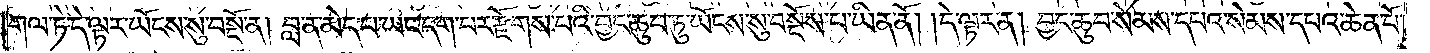གལ་ཏེ་དེ་ལྟར་ཡོངས་སུ་བསྔོ་ན། བླ་ན་མེད་པ་ཡང་དག་པར་རྫོགས་པའི་བྱང་ཆུབ་ཏུ་ཡོངས་སུ་བསྔོས་པ་ཡིན་ནོ། །དེ་ལྟར་ན། བྱང་ཆུབ་སེམས་དཔའ་སེམས་དཔའ་ཆེན་པོ་
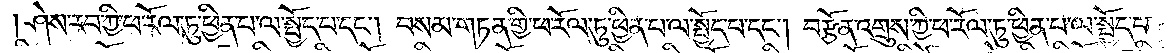ཤེས་རབ་ཀྱི་ཕ་རོལ་ཏུ་ཕྱིན་པ་ལ་སྤྱོད་པ་དང༌། བསམ་གཏན་གྱི་ཕ་རོལ་ཏུ་ཕྱིན་པ་ལ་སྤྱོད་པ་དང༌། བརྩོན་འགྲུས་ཀྱི་ཕ་རོལ་ཏུ་ཕྱིན་པ་ལ་སྤྱོད་པ་
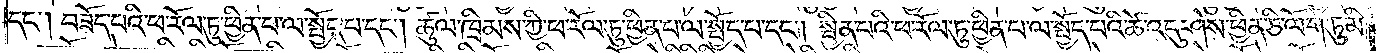དང༌། བཟོད་པའི་ཕ་རོལ་ཏུ་ཕྱིན་པ་ལ་སྤྱོད་པ་དང༌། ཚུལ་ཁྲིམས་ཀྱི་ཕ་རོལ་ཏུ་ཕྱིན་པ་ལ་སྤྱོད་པ་དང༌། སྦྱིན་པའི་ཕ་རོལ་ཏུ་ཕྱིན་པ་ལ་སྤྱོད་པའི་ཚེ་འདུ་ཤེས་ཕྱིན་ཅི་ལོག་ཏུ་མི་
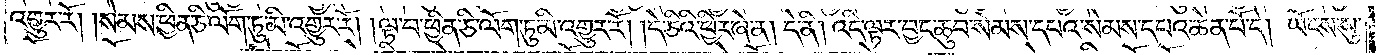འགྱུར་རོ། །སེམས་ཕྱིན་ཅི་ལོག་ཏུ་མི་འགྱུར་རོ། །ལྟ་བ་ཕྱིན་ཅི་ལོག་ཏུ་མི་འགྱུར་རོ། །དེ་ཅིའི་ཕྱིར་ཞེ་ན། དེ་ནི། འདི་ལྟར་བྱང་ཆུབ་སེམས་དཔའ་སེམས་དཔའ་ཆེན་པོ་དེ། ཡོངས་སུ་
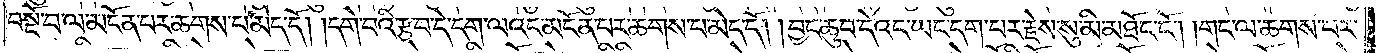བསྔོ་བ་ལ་མངོན་པར་ཆགས་པ་མེད་དོ། །དགེ་བའི་རྩ་བ་དེ་དག་ལའང་མངོན་པར་ཆགས་པ་མེད་དོ། །བྱང་ཆུབ་དེའང་ཡང་དག་པར་རྗེས་སུ་མི་མཐོང་ངོ༌། །གང་ལ་ཆགས་པར་
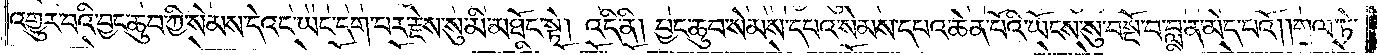འགྱུར་བའི་བྱང་ཆུབ་ཀྱི་སེམས་དེའང་ཡང་དག་པར་རྗེས་སུ་མི་མཐོང་སྟེ། འདི་ནི། བྱང་ཆུབ་སེམས་དཔའ་སེམས་དཔའ་ཆེན་པོའི་ཡོངས་སུ་བསྔོ་བ་བླ་ན་མེད་པའོ། །གལ་ཏེ་
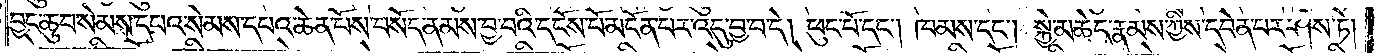བྱང་ཆུབ་སེམས་དཔའ་སེམས་དཔའ་ཆེན་པོས་བསོད་ནམས་བྱ་བའི་དངོས་པོ་མངོན་པར་འདུ་བྱ་བ་དེ། ཕུང་པོ་དང༌། ཁམས་དང༌། སྐྱེ་མཆེད་རྣམས་ཀྱིས་དབེན་པར་ཤེས་ཏེ།
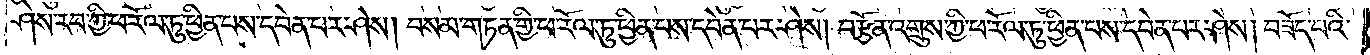ཤེས་རབ་ཀྱི་ཕ་རོལ་ཏུ་ཕྱིན་པས་དབེན་པར་ཤེས། བསམ་གཏན་གྱི་ཕ་རོལ་ཏུ་ཕྱིན་པས་དབེན་པར་ཤེས། བརྩོན་འགྲུས་ཀྱི་ཕ་རོལ་ཏུ་ཕྱིན་པས་དབེན་པར་ཤེས། བཟོད་པའི་
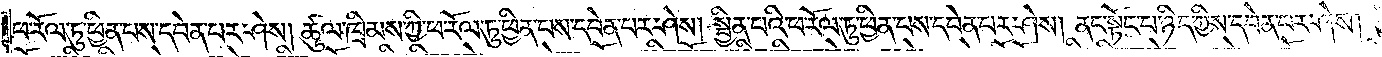ཕ་རོལ་ཏུ་ཕྱིན་པས་དབེན་པར་ཤེས། ཚུལ་ཁྲིམས་ཀྱི་ཕ་རོལ་ཏུ་ཕྱིན་པས་དབེན་པར་ཤེས། སྦྱིན་པའི་ཕ་རོལ་ཏུ་ཕྱིན་པས་དབེན་པར་ཤེས། ནང་སྟོང་པ་ཉིད་ཀྱིས་དབེན་པར་ཤེས། ཕྱི་
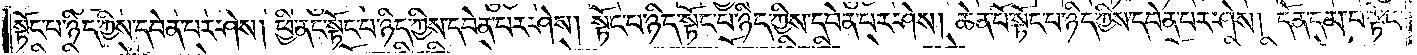སྟོང་པ་ཉིད་ཀྱིས་དབེན་པར་ཤེས། ཕྱི་ནང་སྟོང་པ་ཉིད་ཀྱིས་དབེན་པར་ཤེས། སྟོང་པ་ཉིད་སྟོང་པ་ཉིད་ཀྱིས་དབེན་པར་ཤེས། ཆེན་པོ་སྟོང་པ་ཉིད་ཀྱིས་དབེན་པར་ཤེས། དོན་དམ་པ་སྟོང་
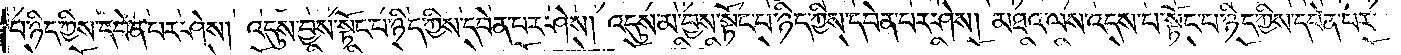པ་ཉིད་ཀྱིས་དབེན་པར་ཤེས། འདུས་བྱས་སྟོང་པ་ཉིད་ཀྱིས་དབེན་པར་ཤེས། འདུས་མ་བྱས་སྟོང་པ་ཉིད་ཀྱིས་དབེན་པར་ཤེས། མཐའ་ལས་འདས་པ་སྟོང་པ་ཉིད་ཀྱིས་དབེན་པར་
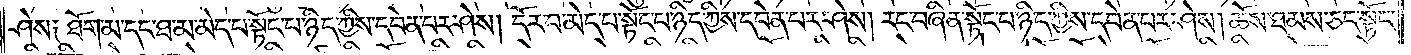ཤེས༑ ཐོག་མ་དང་ཐ་མ་མེད་པ་སྟོང་པ་ཉིད་ཀྱིས་དབེན་པར་ཤེས། དོར་བ་མེད་པ་སྟོང་པ་ཉིད་ཀྱིས་དབེན་པར་ཤེས། རང་བཞིན་སྟོང་པ་ཉིད་ཀྱིས་དབེན་པར་ཤེས། ཆོས་ཐམས་ཅད་སྟོང་
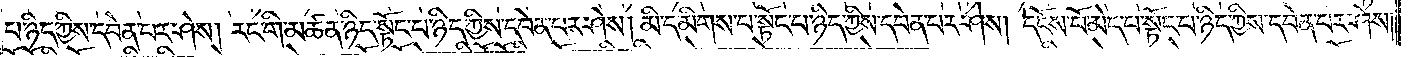པ་ཉིད་ཀྱིས་དབེན་པར་ཤེས། རང་གི་མཚན་ཉིད་སྟོང་པ་ཉིད་ཀྱིས་དབེན་པར་ཤེས། མི་དམིགས་པ་སྟོང་པ་ཉིད་ཀྱིས་དབེན་པར་ཤེས། དངོས་པོ་མེད་པ་སྟོང་པ་ཉིད་ཀྱིས་དབེན་པར་ཤེས།
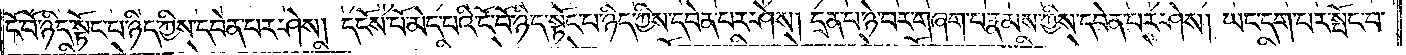ངོ་བོ་ཉིད་སྟོང་པ་ཉིད་ཀྱིས་དབེན་པར་ཤེས། དངོས་པོ་མེད་པའི་ངོ་བོ་ཉིད་སྟོང་པ་ཉིད་ཀྱིས་དབེན་པར་ཤེས། དྲན་པ་ཉེ་བར་གཞག་པ་རྣམས་ཀྱིས་དབེན་པར་ཤེས། ཡང་དག་པར་སྤོང་བ་
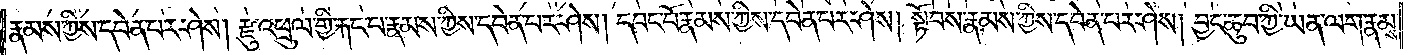རྣམས་ཀྱིས་དབེན་པར་ཤེས། རྫུ་འཕྲུལ་གྱི་རྐང་པ་རྣམས་ཀྱིས་དབེན་པར་ཤེས། དབང་པོ་རྣམས་ཀྱིས་དབེན་པར་ཤེས། སྟོབས་རྣམས་ཀྱིས་དབེན་པར་ཤེས། བྱང་ཆུབ་ཀྱི་ཡན་ལག་རྣམས་
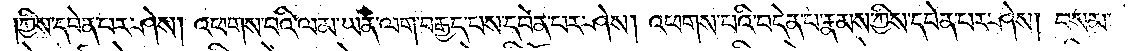ཀྱིས་དབེན་པར་ཤེས། འཕགས་པའི་ལམ་ཡན་ལག་བརྒྱད་པས་དབེན་པར་ཤེས། འཕགས་པའི་བདེན་པ་རྣམས་ཀྱིས་དབེན་པར་ཤེས། བསམ་
